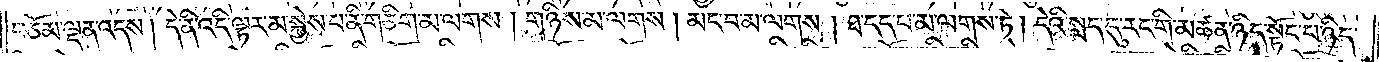བཅོམ་ལྡན་འདས། དེ་ནི་འདི་ལྟར་མ་སྐྱེས་པ་ནི་གཅིག་མ་ལགས། གཉིས་མ་ལགས། མང་བ་མ་ལགས། ཐ་དད་པ་མ་ལགས་ཏེ། དེའི་སླད་དུ་རང་གི་མཚན་ཉིད་སྟོང་པ་ཉིད་
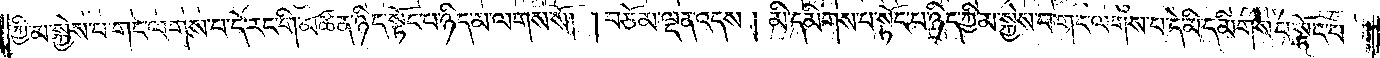ཀྱི་མ་སྐྱེས་པ་གང་ལགས་པ་དེ་རང་གི་མཚན་ཉིད་སྟོང་པ་ཉིད་མ་ལགས་སོ། །བཅོམ་ལྡན་འདས། མི་དམིགས་པ་སྟོང་པ་ཉིད་ཀྱི་མ་སྐྱེས་པ་གང་ལགས་པ་དེ་མི་དམིགས་པ་སྟོང་པ་
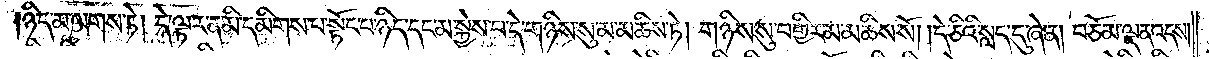ཉིད་མ་ལགས་ཏེ། དེ་ལྟར་ན་མི་དམིགས་པ་སྟོང་པ་ཉིད་དང་མ་སྐྱེས་པ་དེ་གཉིས་སུ་མ་མཆིས་ཏེ། གཉིས་སུ་བགྱིར་མ་མཆིས་སོ། །དེ་ཅིའི་སླད་དུ་ཞེ་ན། བཅོམ་ལྡན་འདས།
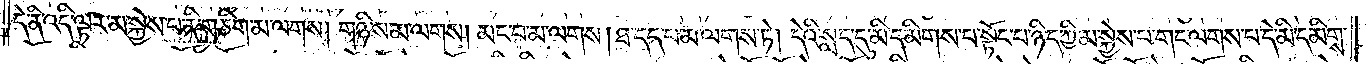དེ་ནི་འདི་ལྟར་མ་སྐྱེས་པ་ནི་གཅིག་མ་ལགས། གཉིས་མ་ལགས། མང་བ་མ་ལགས། ཐ་དད་པ་མ་ལགས་ཏེ། དེའི་སླད་དུ་མི་དམིགས་པ་སྟོང་པ་ཉིད་ཀྱི་མ་སྐྱེས་པ་གང་ལགས་པ་དེ་མི་དམིགས་
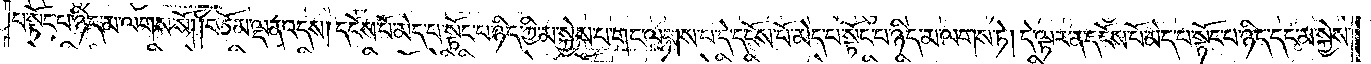པ་སྟོང་པ་ཉིད་མ་ལགས་སོ། །བཅོམ་ལྡན་འདས། དངོས་པོ་མེད་པ་སྟོང་པ་ཉིད་ཀྱི་མ་སྐྱེས་པ་གང་ལགས་པ་དེ་དངོས་པོ་མེད་པ་སྟོང་པ་ཉིད་མ་ལགས་ཏེ། དེ་ལྟར་ན་དངོས་པོ་མེད་པ་སྟོང་པ་ཉིད་དང་མ་སྐྱེས་
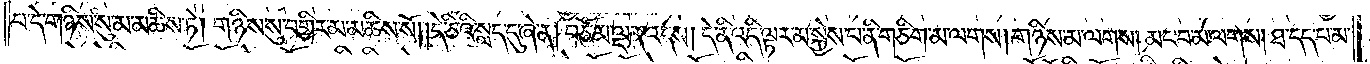པ་དེ་གཉིས་སུ་མ་མཆིས་ཏེ། གཉིས་སུ་བགྱིར་མ་མཆིས་སོ། །དེ་ཅིའི་སླད་དུ་ཞེ་ན། བཅོམ་ལྡན་འདས། དེ་ནི་འདི་ལྟར་མ་སྐྱེས་པ་ནི་གཅིག་མ་ལགས། གཉིས་མ་ལགས། མང་བ་མ་ལགས། ཐ་དད་པ་མ་
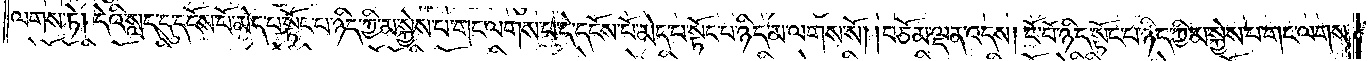ལགས་ཏེ། དེའི་སླད་དུ་དངོས་པོ་མེད་པ་སྟོང་པ་ཉིད་ཀྱི་མ་སྐྱེས་པ་གང་ལགས་པ་དེ་དངོས་པོ་མེད་པ་སྟོང་པ་ཉིད་མ་ལགས་སོ། །བཅོམ་ལྡན་འདས། ངོ་བོ་ཉིད་སྟོང་པ་ཉིད་ཀྱི་མ་སྐྱེས་པ་གང་ལགས་
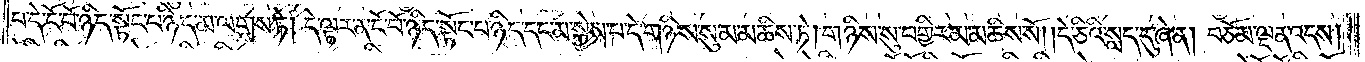པ་དེ་ངོ་བོ་ཉིད་སྟོང་པ་ཉིད་མ་ལགས་ཏེ། དེ་ལྟར་ན་ངོ་བོ་ཉིད་སྟོང་པ་ཉིད་དང་མ་སྐྱེས་པ་དེ་གཉིས་སུ་མ་མཆིས་ཏེ། གཉིས་སུ་བགྱིར་མ་མཆིས་སོ། །དེ་ཅིའི་སླད་དུ་ཞེ་ན། བཅོམ་ལྡན་འདས་
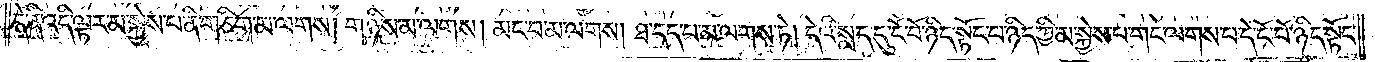དེ་ནི་འདི་ལྟར་མ་སྐྱེས་པ་ནི་གཅིག་མ་ལགས། གཉིས་མ་ལགས། མང་བ་མ་ལགས། ཐ་དད་པ་མ་ལགས་ཏེ། དེའི་སླད་དུ་ངོ་བོ་ཉིད་སྟོང་པ་ཉིད་ཀྱི་མ་སྐྱེས་པ་གང་ལགས་པ་དེ་ངོ་བོ་ཉིད་སྟོང་
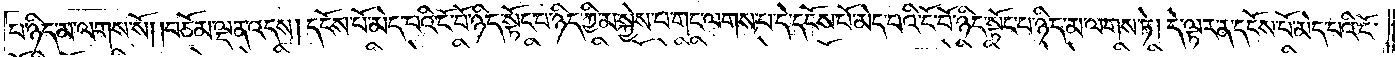པ་ཉིད་མ་ལགས་སོ། །བཅོམ་ལྡན་འདས། དངོས་པོ་མེད་པའི་ངོ་བོ་ཉིད་སྟོང་པ་ཉིད་ཀྱི་མ་སྐྱེས་པ་གང་ལགས་པ་དེ་དངོས་པོ་མེད་པའི་ངོ་བོ་ཉིད་སྟོང་པ་ཉིད་མ་ལགས་ཏེ། དེ་ལྟར་ན་དངོས་པོ་མེད་པའི་ངོ་
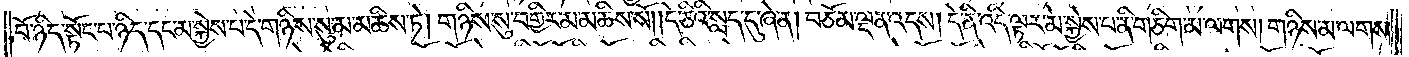བོ་ཉིད་སྟོང་པ་ཉིད་དང་མ་སྐྱེས་པ་དེ་གཉིས་སུ་མ་མཆིས་ཏེ་གཉིས་སུ་བགྱིར་མ་མཆིས་སོ། །དེ་ཅིའི་སླད་དུ་ཞེ་ན། བཅོམ་ལྡན་འདས། དེ་ནི་འདི་ལྟར་མ་སྐྱེས་པ་ནི་གཅིག་མ་ལགས། གཉིས་མ་ལགས།
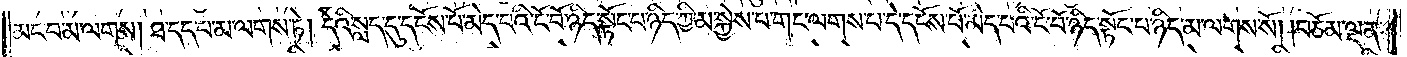མང་བ་མ་ལགས། ཐ་དད་པ་མ་ལགས་ཏེ། དེའི་སླད་དུ་དངོས་པོ་མེད་པའི་ངོ་བོ་ཉིད་སྟོང་པ་ཉིད་ཀྱི་མ་སྐྱེས་པ་གང་ལགས་པ་དེ་དངོས་པོ་མེད་པའི་ངོ་བོ་ཉིད་སྟོང་པ་ཉིད་མ་ལགས་སོ། །བཅོམ་ལྡན་
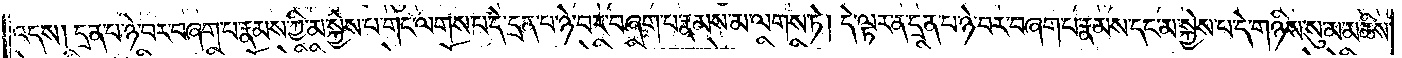འདས། དྲན་པ་ཉེ་བར་བཞག་པ་རྣམས་ཀྱི་མ་སྐྱེས་པ་གང་ལགས་པ་དེ་དྲན་པ་ཉེ་བར་བཞག་པ་རྣམས་མ་ལགས་ཏེ། དེ་ལྟར་ན་དྲན་པ་ཉེ་བར་བཞག་པ་རྣམས་དང་མ་སྐྱེས་པ་དེ་གཉིས་སུ་མ་མཆིས་
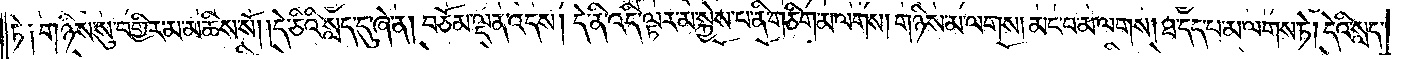ཏེ༑ གཉིས་སུ་བགྱིར་མ་མཆིས་སོ། །དེ་ཅིའི་སླད་དུ་ཞེ་ན། བཅོམ་ལྡན་འདས། དེ་ནི་འདི་ལྟར་མ་སྐྱེས་པ་ནི་གཅིག་མ་ལགས། གཉིས་མ་ལགས། མང་བ་མ་ལགས། ཐ་དད་པ་མ་ལགས་ཏེ། དེའི་སླད་
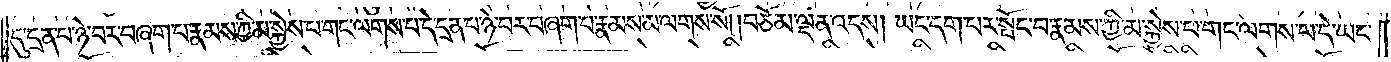དུ་དྲན་པ་ཉེ་བར་བཞག་པ་རྣམས་ཀྱི་མ་སྐྱེས་པ་གང་ལགས་པ་དེ་དྲན་པ་ཉེ་བར་བཞག་པ་རྣམས་མ་ལགས་སོ། །བཅོམ་ལྡན་འདས། ཡང་དག་པར་སྤོང་བ་རྣམས་ཀྱི་མ་སྐྱེས་པ་གང་ལགས་པ་དེ་ཡང་
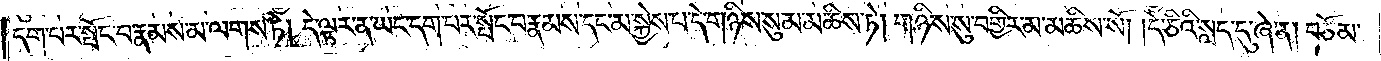དག་པར་སྤོང་བ་རྣམས་མ་ལགས་ཏེ། དེ་ལྟར་ན་ཡང་དག་པར་སྤོང་བ་རྣམས་དང་མ་སྐྱེས་པ་དེ་གཉིས་སུ་མ་མཆིས་ཏེ། གཉིས་སུ་བགྱིར་མ་མཆིས་སོ། །དེ་ཅིའི་སླད་དུ་ཞེ་ན། བཅོམ་
